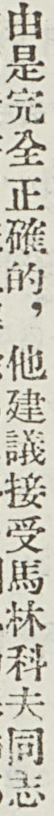由是完全正確的，他建議接受馬林科夫同志
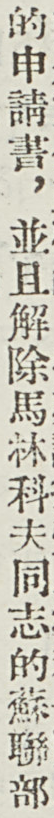的申請書，並且解除馬林科夫同志的蘇聯部
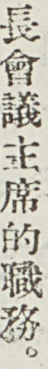長會議主席的職務。
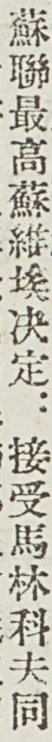蘇聯最高蘇維埃決定：接受馬林科夫同
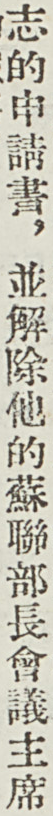志的申請書，並解除他的蘇聯部長會議主席
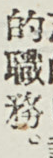的職務。
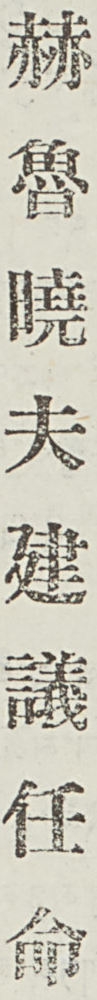赫魯曉夫建議任命
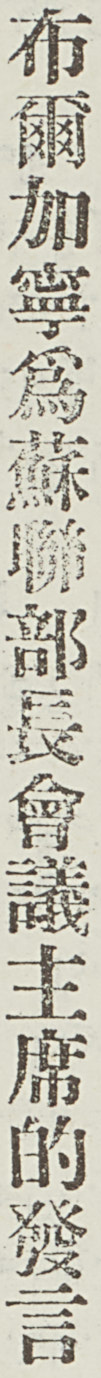布爾加寧爲蘇聯部長會議主席的發言
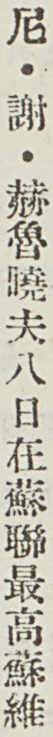尼・謝・赫魯曉夫八日在蘇聯最高蘇維
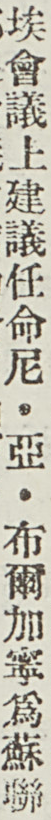埃會議上建議任命尼・亞・布爾加寧爲蘇聯
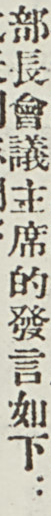部長會議主席的發言如下：
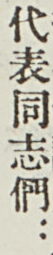代表同志們：
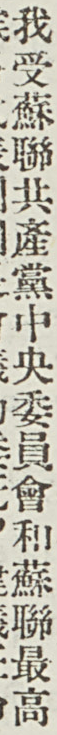我受蘇聯共產黨中央委員會和蘇聯最高
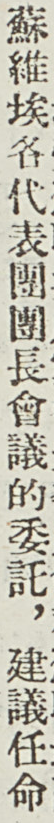蘇維埃各代表團團長會議的委託，建議任命
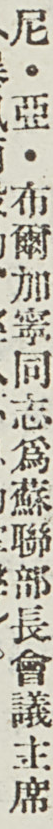尼・亞・布爾加寧同志爲蘇聯部長會議主席
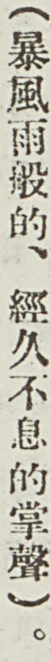（暴風雨般的、經久不息的掌聲）。
